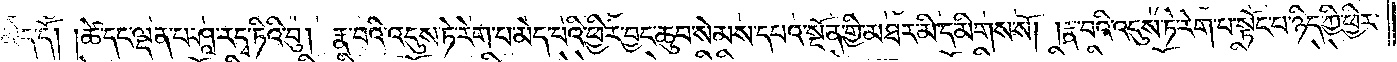མེད་དོ། །ཚེ་དང་ལྡན་པ་ཤཱ་རདྭ་ཏིའི་བུ། རྣ་བའི་འདུས་ཏེ་རེག་པ་མེད་པའི་ཕྱིར་བྱང་ཆུབ་སེམས་དཔའ་སྔོན་གྱི་མཐར་མི་དམིགས་སོ། །རྣ་བའི་འདུས་ཏེ་རེག་པ་སྟོང་པ་ཉིད་ཀྱི་ཕྱིར་
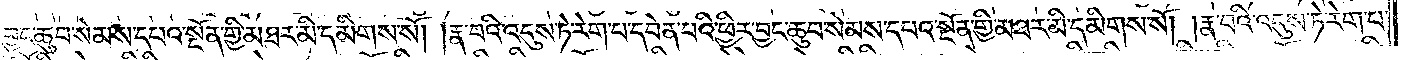བྱང་ཆུབ་སེམས་དཔའ་སྔོན་གྱི་མཐར་མི་དམིགས་སོ། །རྣ་བའི་འདུས་ཏེ་རེག་པ་དབེན་པའི་ཕྱིར་བྱང་ཆུབ་སེམས་དཔའ་སྔོན་གྱི་མཐར་མི་དམིགས་སོ། །རྣ་བའི་འདུས་ཏེ་རེག་པ་
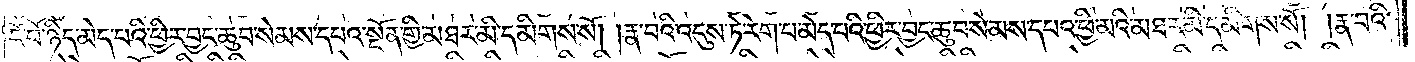ངོ་བོ་ཉིད་མེད་པའི་ཕྱིར་བྱང་ཆུབ་སེམས་དཔའ་སྔོན་གྱི་མཐར་མི་དམིགས་སོ། །རྣ་བའི་འདུས་ཏེ་རེག་པ་མེད་པའི་ཕྱིར་བྱང་ཆུབ་སེམས་དཔའ་ཕྱི་མའི་མཐར་མི་དམིགས་སོ། །རྣ་བའི་
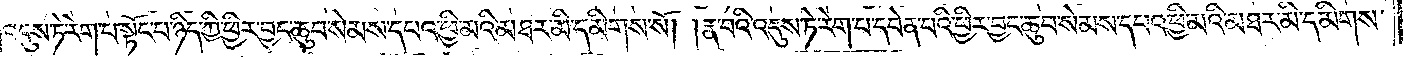འདུས་ཏེ་རེག་པ་སྟོང་པ་ཉིད་ཀྱི་ཕྱིར་བྱང་ཆུབ་སེམས་དཔའ་ཕྱི་མའི་མཐར་མི་དམིགས་སོ། །རྣ་བའི་འདུས་ཏེ་རེག་པ་དབེན་པའི་ཕྱིར་བྱང་ཆུབ་སེམས་དཔའ་ཕྱི་མའི་མཐར་མི་དམིགས་
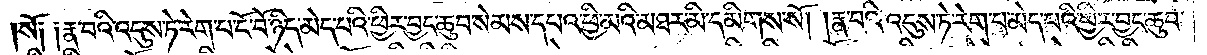སོ༑ ༑རྣ་བའི་འདུས་ཏེ་རེག་པ་ངོ་བོ་ཉིད་མེད་པའི་ཕྱིར་བྱང་ཆུབ་སེམས་དཔའ་ཕྱི་མའི་མཐར་མི་དམིགས་སོ། །རྣ་བའི་འདུས་ཏེ་རེག་པ་མེད་པའི་ཕྱིར་བྱང་ཆུབ་
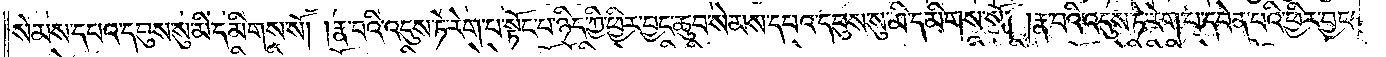སེམས་དཔའ་དབུས་སུ་མི་དམིགས་སོ། །རྣ་བའི་འདུས་ཏེ་རེག་པ་སྟོང་པ་ཉིད་ཀྱི་ཕྱིར་བྱང་ཆུབ་སེམས་དཔའ་དབུས་སུ་མི་དམིགས་སོ། །རྣ་བའི་འདུས་ཏེ་རེག་པ་དབེན་པའི་ཕྱིར་བྱང་
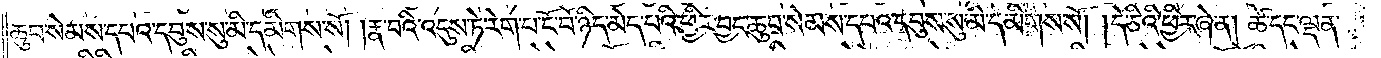ཆུབ་སེམས་དཔའ་དབུས་སུ་མི་དམིགས་སོ། །རྣ་བའི་འདུས་ཏེ་རེག་པ་ངོ་བོ་ཉིད་མེད་པའི་ཕྱིར་བྱང་ཆུབ་སེམས་དཔའ་དབུས་སུ་མི་དམིགས་སོ། །དེ་ཅིའི་ཕྱིར་ཞེ་ན། ཚེ་དང་ལྡན་
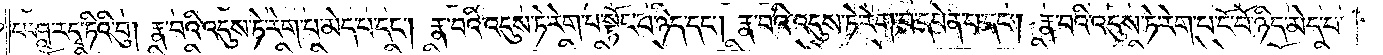པ་ཤཱ་རདྭ་ཏིའི་བུ། རྣ་བའི་འདུས་ཏེ་རེག་པ་མེད་པ་དང༌། རྣ་བའི་འདུས་ཏེ་རེག་པ་སྟོང་པ་ཉིད་དང༌། རྣ་བའི་འདུས་ཏེ་རེག་པ་དབེན་པ་དང༌། རྣ་བའི་འདུས་ཏེ་རེག་པ་ངོ་བོ་ཉིད་མེད་པ་
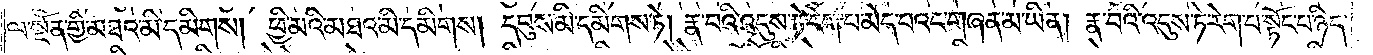ལ་སྔོན་གྱི་མཐའ་མི་དམིགས། ཕྱི་མའི་མཐའ་མི་དམིགས། དབུས་མི་དམིགས་ཏེ། རྣ་བའི་འདུས་ཏེ་རེག་པ་མེད་པའང་གཞན་མ་ཡིན། རྣ་བའི་འདུས་ཏེ་རེག་པ་སྟོང་པ་ཉིད་
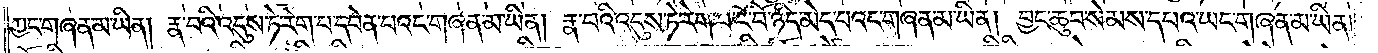ཀྱང་གཞན་མ་ཡིན། རྣ་བའི་འདུས་ཏེ་རེག་པ་དབེན་པའང་གཞན་མ་ཡིན། རྣ་བའི་འདུས་ཏེ་རེག་པ་ངོ་བོ་ཉིད་མེད་པའང་གཞན་མ་ཡིན། བྱང་ཆུབ་སེམས་དཔའ་ཡང་གཞན་མ་ཡིན།
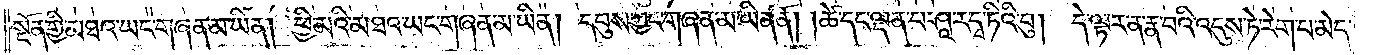སྔོན་གྱི་མཐའ་ཡང་གཞན་མ་ཡིན། ཕྱི་མའི་མཐའ་ཡང་གཞན་མ་ཡིན། དབུས་ཀྱང་གཞན་མ་ཡིན་ནོ། །ཚེ་དང་ལྡན་པ་ཤཱ་རདྭ་ཏིའི་བུ། དེ་ལྟར་ན་རྣ་བའི་འདུས་ཏེ་རེག་པ་མེད་
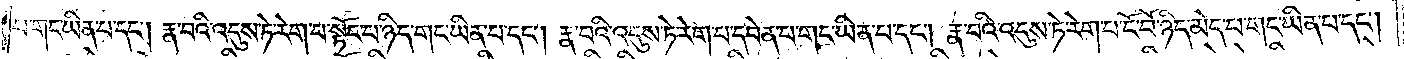པ་གང་ཡིན་པ་དང༌། རྣ་བའི་འདུས་ཏེ་རེག་པ་སྟོང་པ་ཉིད་གང་ཡིན་པ་དང༌། རྣ་བའི་འདུས་ཏེ་རེག་པ་དབེན་པ་གང་ཡིན་པ་དང༌། རྣ་བའི་འདུས་ཏེ་རེག་པ་ངོ་བོ་ཉིད་མེད་པ་གང་ཡིན་པ་དང༌།
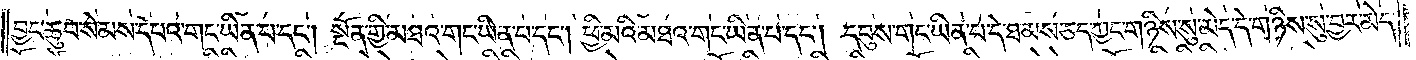བྱང་ཆུབ་སེམས་དཔའ་གང་ཡིན་པ་དང༌། སྔོན་གྱི་མཐའ་གང་ཡིན་པ་དང༌། ཕྱི་མའི་མཐའ་གང་ཡིན་པ་དང༌། དབུས་གང་ཡིན་པ་དེ་ཐམས་ཅད་ཀྱང་གཉིས་སུ་མེད་དེ་གཉིས་སུ་བྱར་མེད་
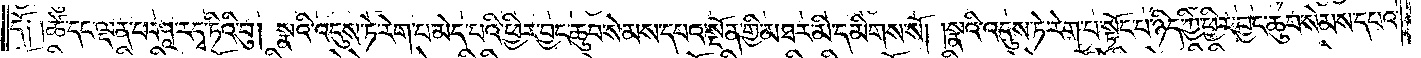དོ། །ཚེ་དང་ལྡན་པ་ཤཱ་རདྭ་ཏིའི་བུ། སྣའི་འདུས་ཏེ་རེག་པ་མེད་པའི་ཕྱིར་བྱང་ཆུབ་སེམས་དཔའ་སྔོན་གྱི་མཐར་མི་དམིགས་སོ། །སྣའི་འདུས་ཏེ་རེག་པ་སྟོང་པ་ཉིད་ཀྱི་ཕྱིར་བྱང་ཆུབ་སེམས་དཔའ་
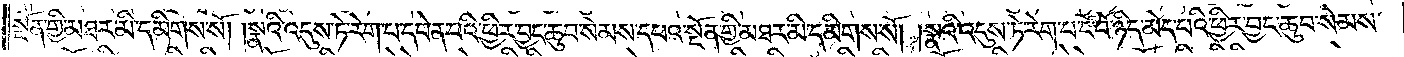སྔོན་གྱི་མཐར་མི་དམིགས་སོ། །སྣའི་འདུས་ཏེ་རེག་པ་དབེན་པའི་ཕྱིར་བྱང་ཆུབ་སེམས་དཔའ་སྔོན་གྱི་མཐར་མི་དམིགས་སོ། །སྣའི་འདུས་ཏེ་རེག་པ་ངོ་བོ་ཉིད་མེད་པའི་ཕྱིར་བྱང་ཆུབ་སེམས་
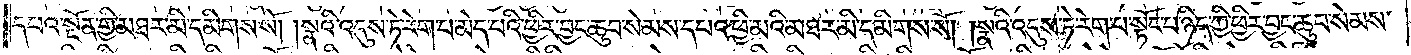དཔའ་སྔོན་གྱི་མཐར་མི་དམིགས་སོ། །སྣའི་འདུས་ཏེ་རེག་པ་མེད་པའི་ཕྱིར་བྱང་ཆུབ་སེམས་དཔའ་ཕྱི་མའི་མཐར་མི་དམིགས་སོ། །སྣའི་འདུས་ཏེ་རེག་པ་སྟོང་པ་ཉིད་ཀྱི་ཕྱིར་བྱང་ཆུབ་སེམས་
